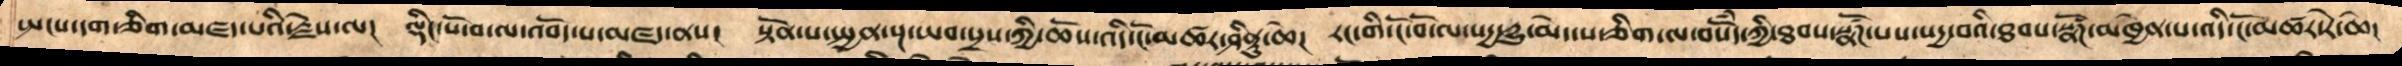སྤངས་དག་ཅིག་མཛད་པའི་རྗེས་ལ།  ལྡིང་པོ་བ་ལ་འབོད་པ་མཛད་ནས།  སྟོན་པ་སྤྱན་སྔ་ཡབ་སྲས་ཀྱི་ཆོས་འདི་ངོ་མཚར་ཤིནྟུ་ཆེ།  རང་གི་ངོ་བོ་ལ་སདྱ་དྱུ་མེད་པ་ཅིག་ལ་བསོཾད་ཀྱི་ཐབས་སྣཚོཌ་པས་སདྱ་བའི་ཐབས་སྣཚོཌ་མཁྱེན་པ་འདི་ངོ་མཚར་རེ་ཆེ།
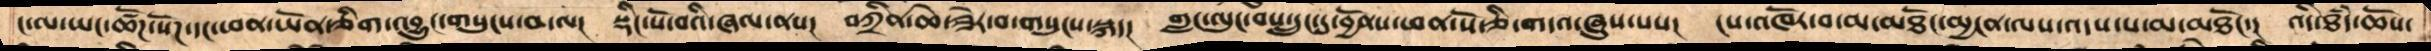ང་ལ་ཡང་ཚོཌ་སོཌ་དང་ཕན་ཡོན་ཅིག་འབྱུང་གསུངས་བ་ལ།  སྡིང་པོ་བའི་ཞལ་ནས།  བཀྲིན་ཆེ་ཟེར་བ་གསུངས་སྐད།  གླང་ལུང་བས་དྲུང་དུ་བྱོནས་ཕན་པོ་ཅི་གདའ་ཞུས་པས།  ངས་འཁོར་བ་མ་མཐོང་མྱངན་ལས་འདས་པ་མ་མཐོང་། འདི་ཐཾད་ཆོས་
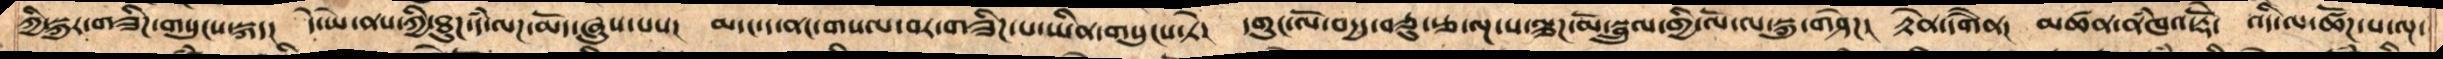ཀྱི་སྐུར་གཟིཌ་གསུངས་སྐད།  དེ་ཡེ་ནས་ཀྱི་ཐུཌ་དཾ་ལཌ་མོད་ཞུས་པས།  མདང་ད་ནང་གསལ་བར་གཟིཌ་པ་ཡིན་གསུངས་ཏེ།  དགུང་ལོ་བདྱད་བཅུ་རྩ་ལྔ་པ་ལྕཌ་མོ་སྦྲུལ་གྱི་ལོ་ལ་སྐུ་གཤེཌ།  རྟེན་དགཻན།  མཚན་ནཾཁའ་རྡོེ།  འདི་ལ་ཚོཌ་པ་ལྔ་
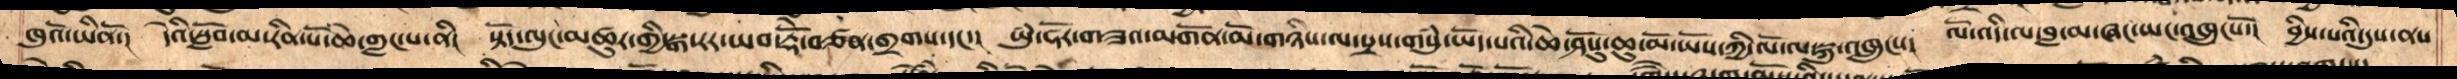ཁུའོ་ཡིནོ་།  དེའི་སློབ་མ་རིན་པོ་ཆེ་གླང་པ་ནི།  སྟོད་ལུང་མཚུར་གྱི་སྒ་རར་ཡབ་རྡོེ་བཙན་གྲགས་དང་།  ཡུཾ་ཧོར་གཟའ་མགོན་མོ་གཉིས་ལ་སྲས་གསུཾ་ཡོད་པའི་ཆེ་ཤོསུ་ཆུ་མོ་ཡོས་ཀྱི་ལོ་ལ་སྐུ་འཁྲུངས།  ལོ་འདི་ལ་བླ་མ་ཞང་ཡང་འཁྲུངསོ་། བྱིས་པའི་དུས་ནས་
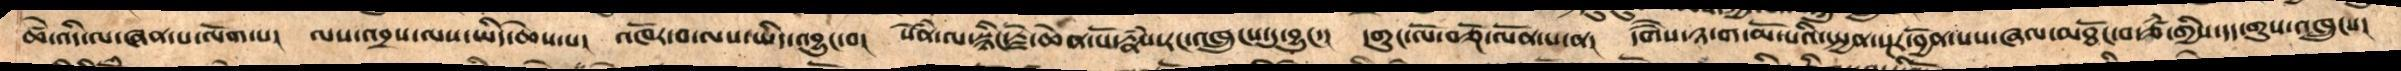ཚེ་འདི་ལ་ཞན་པ་ལོག་པ།  ལས་འབྲས་ལས་ཡིད་ཆེས་པ།  འཁོར་བ་ལས་ཡིད་འབྱུང་བ།  སེཾན་ལ་སྙིང་རྗེ་ཆེན་པོ་རྣཾས་རང་འཁྲུངས་དུ་བྱུང་།   དགུང་ལོ་བཅྔོ་ལོན་པ་ན།  དགཻས་ཉ་ག་མོ་པའི་སྤྱན་སྔར་བྱོན་པས་ཞལ་མཐོང་བ་ཙཾ་གྱིས་དད་གུས་འཁྲུངས།
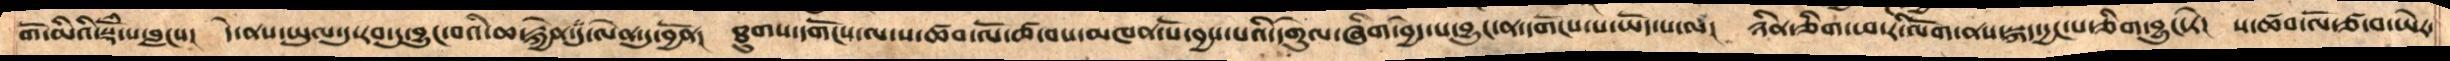གོ་མིའི་སྡོཾ་པ་བླངས།  དེ་ནས་ཡུལ་དུ་རབ་དུ་བྱུང་བའི་ཆ་རྐྱེན་དུ་ལེན་དུ་བྱོན།  ཐུགས་དགོངས་ལ་པ་ཚབ་ལོ་ཚ་བས་མཁན་པོ་བྱས་པའི་དགེུལ་ཞིག་བྱེད་པ་བྱུང་ན་དགོངས་་པ་ཡོད་པ་ལ།  ཉིན་ཅིག་ཕ་རི་ལོག་ནས་སྐད་དྱང་པ་ཅིག་བྱུང་ཏེ།  པ་ཚབ་ལོ་ཙ་བ་ཡེར་
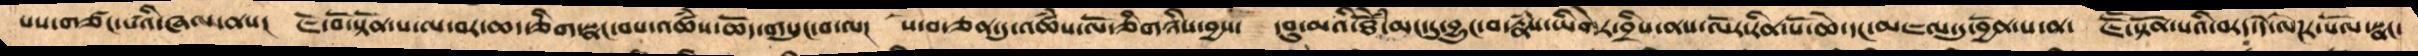པས་གཙང་པའི་ཞལ་ནས།  ཇོ་བོ་སྟོན་པ་ལ་བར་ཆད་ཅིག་སྣང་བས་འཚཾས་ཆོད་གསུང་བ་ལ།  སེ་བ་ཅན་དུ་འཚཾས་ལོ་ཅིགཉིས་བྱས།  དབུ་མའི་ཐེཚོྃ་མང་དུ་བྱུང་བ་རྣཾས་ཡིགེར་བྲིས་ནས་ལོར་རིན་པོ་ཆེ་དང་མཇལ་དུ་བྱོན་པ་ན་  ཇཽ་སྟོན་པའི་བརད་དེ་ལེཌར་སོལ་སྣང་
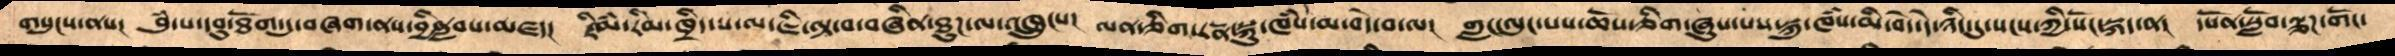གསུངས་ནས།   བུཾ་པ་དབུ་ཐོག་དུ་བཞག་ནས་བྱིནླབས་མཛད།   རྗིལཾ་རིམ་ཁྲིད་པ་ལ་ཇི་ལྟ་བ་བཞིན་ཐུཌ་ལ་འཁྲུངས།  ལན་ཅིག་རངྣ་སྐུ་ཁཾས་མ་བདེ་བ་ལ།  གླང་ལུང་པས་ཆོས་ཅིག་ཞུས་པས་སྐུ་ཁཾས་མི་བདེ་དེ་ཉིད་དུ་སངས་ཀྱི་སོང་སྐད་ན།   དཔོན་སློབ་ལྕཌ་གོང་
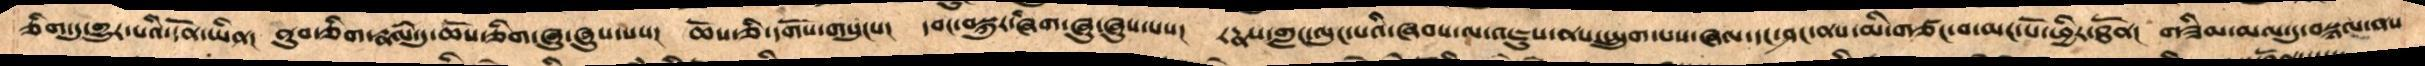ཅིག་དུ་གྱུར་པའི་དོན་ཡིན།  ནུབ་ཅིག་རྣལཾ་ལམ་དུ་ཆོས་ཅིག་ཞུ་ཞུས་པས།  ཆོས་ཅི་དགོས་གསུངས།  དབང་བསྐུར་ཞིག་ཞུ་ཞུས་པས།   རཏྣས་གླང་ལུང་པའི་ཞབས་ལ་འཇུས་ནས་སྤྲུགས་པ་ཞལ་དང་ཤང་ནས་མི་གཙང་བ་མང་པོ་ཕྱིར་ཐོན།  གཟིམ་མལ་དུ་བསྙལ་ནས་
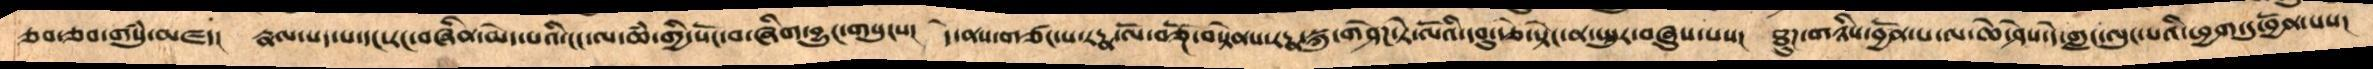ཅབ་ཅབ་གསུཾ་མཛད།  རྣལ་སད་པ་དང་རང་བཞིན་མེད་པའི་ངང་ལ་ཆཾ་གྱི་སོང་བ་ཞིག་བྱུང་གསུངས།   དེ་ནས་གཙང་པ་རཏྣ་ལོབཅྔོ་་བསྟེནས་རཏྣ་སྐུ་གཤེཌ་ཏེ་ལོའི་དབུ་རྩེ་སྟེང་ན་སྤུར་བཞུས་པས།  ཐུཌ་གཉིས་བྱོན་པ་ལ་ཆེ་ཤེས་དེ་གླང་ལུང་པའི་ཕྱག་ཏུ་བྱོན་པས་
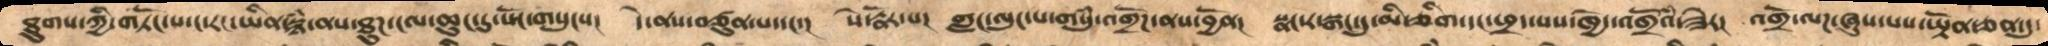ཐུགས་ཀྱི་གཏོང་པ་ང་རང་ཡིན་སྙཾ་ནས་ཐུཌ་ངལ་ཆུང་དུ་སོང་གསུངས།   དེ་ནས་བཙུན་པ་དང་། སེ་རྣོར་པ་།   གླང་ལུང་པ་གསུཾ་འགྲོཌ་ནས་བྱོན།  སྣང་ར་སྒང་དུ་མི་ཅིག་དང་ཕྲད་པས་ཁྱེད་འགྲོའཾ་ཟེར།  འགྲོ་ལཌ་ཞུས་པས་ཡྟོན་ཅན་དུ་
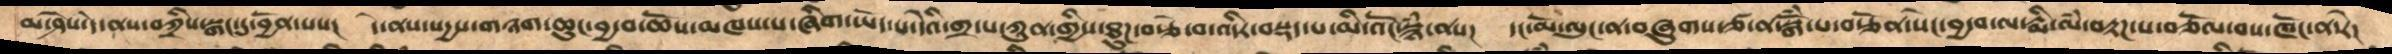མ་ཤེས་དེ་ནས་བཀྲིས་སྒང་དུ་བྱོན་པས།  དེ་ནས་སདྱས་གཉག་ཆུང་བྱ་བ་ཆོས་མཁས་པ་ཞིག་ཡོད་པ་དེའི་གྲ་པ་ཀུན་གྱིས་ཐུཌ་བཙེ་བ་འདིར་བསྡད་པ་མི་འོང་སྙཾ་ནས།   དང་མོ་ལུང་ན་བཞུགས་ཙ་ན་སྒོཾ་པ་བརྩོན་སེང་བྱ་བ་ལ་རྨི་ལཾ་བརྟཌ་པ་བཅོལ་བས་ཁོང་ན་རེ།
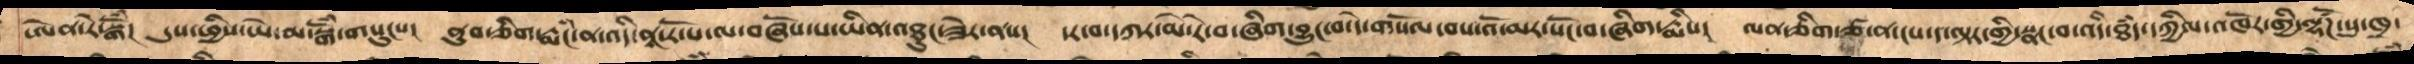ཨེན་རེ་སྒོཾ།  དུས་ཕྱིས་ཡེ་མ་སྒོཾ་གསུངས།  ནུབ་ཅིག་རྨངཾ་ན་འདི་ནཱ་རོ་པ་ལ་བཞོས་པ་ཡིན་འཐུང་ཟེར་ནས།  དར་བ་དཀར་མེ་རེ་བ་ཞིག་བྱུང་བ་དེ་གསོལ་བས་འོ་མར་སོང་བ་ཞིག་རྨིས།  ལན་ཅིག་ཙ་ན་ངས་ད་ལྟར་གྱི་སྣང་བ་འདི་ཐཾད་དཀྱིལ་འཁོར་གྱི་ལྷཚོཌ་སུ་ཁྲ་
